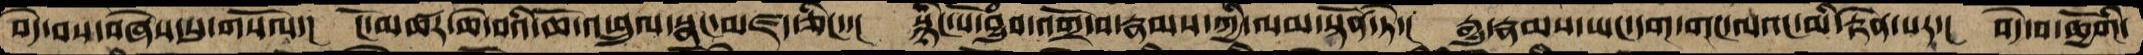བདེ་བས་བཞེས་སུ་གསོལ་།  ངོ་མཚར་ཆེ་བའི་ཆོ་འཕྲུལ་སྣང་མཛད་ཅིང་་།  སྙིང་པོ་བྱུཾབ་འགྲོ་བ་རྣམས་ཀྱི་ལམ་སྟོན་ཏེ་།  རྒྱུ་རྣམས་ཡང་དག་གང་ལའང་མི་རྟེན་པར་།  བདེ་བ་ཆྱོགི་
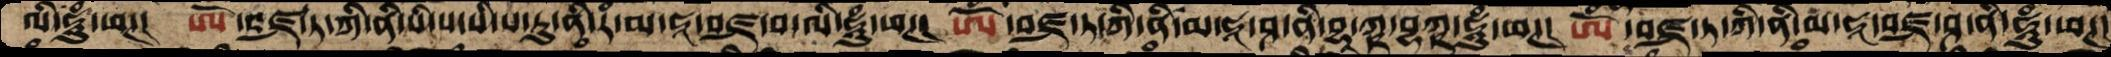ལི་ཧཱུཾ་ཕཊ།  ཨོཾ་བཛྲ་ཏ་ཀི་ནི་པི་པ་པི་པ་ཏུ་ནི་རཾ་མ་ཧཱ་བཛྲ་བ་ལི་ཧཱུཾ་ཕཊ།  ཨོཾ་བཛྲ་ཏ་ཀི་ནི་མ་ཧཱ་ཤ་ནི་བྷ་ཀྵ་བྷཀྵ་ཧཱུཾ་ཕཊ།   ཨོཾ་བཛྲ་ཏ་ཀི་ནི་མ་ཧཱ་བཛྲ་ཤ་ནི་ཧཱུཾ་ཕཊ།
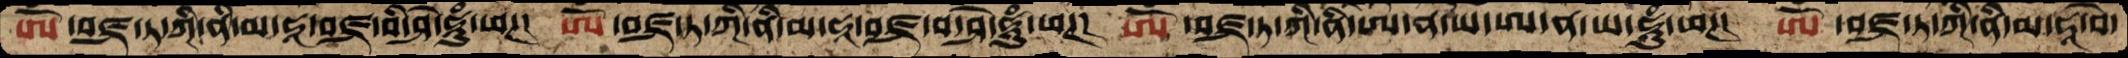ཨོཾ་བཛྲ་ཏ་ཀི་ནི་མ་ཧཱ་བཛྲ་བི་ཤེ་ཧཱུཾ་ཕཊ།  ཨོཾ་བཛྲ་ཏ་ཀི་ནི་མ་ཧཱ་བཛྲ་བ་ཤེ་ཧཱུཾ་ཕཊ།  ཨོཾ་བཛྲ་ཏ་ཀི་ནི་ཨ་ན་ཡ་ཨ་ན་ཡ་ཧཱུཾ་ཕཊ།  ཨོཾ་བཛྲ་ཏ་ཀི་ནི་མ་ཧཱ་བེ་
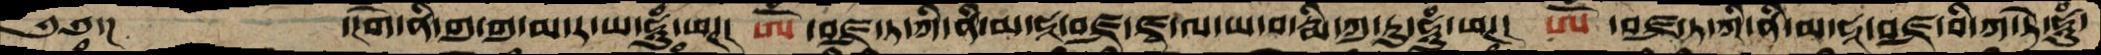༄༅་།          ་།གེ་ནི་གུ་གུ་མ་ར་ཡ་ཧཱུཾ་ཕཊ།    ཨོཾ་བཛྲ་ཏ་ཀི་ནི་མ་ཧཱ་བཛྲ་ཛྭ་ལ་ཡ་བ་རྨི་ཀུ་རུ་ཧཱུཾ་ཕཊ།  ཨོཾ ་བཛྲ་ཏཀི་ནི་མ་ཧཱ་བཛྲ་བི་ཀ་ཏེ་ཧཱུཾ་
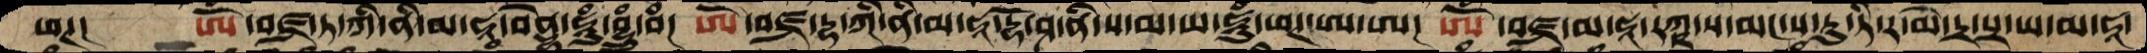ཕཊ།  ཨོཾ་བཛྲ་ཏ་ཀི་ནི་མ་ཧཱ་བནྡྷེ་ཧཱུཾ་བྷྲུཾ་བཾ།  ཨོ་བཛྲ་དྷ་ཀི་ནི་མ་ཧཱ་དྷོ་ཤ་ནི་ས་མ་ཡ་ཧཱུཾ་ཕཊ་ཨ་ཨ།  ཨོཾ་བཛྲ་མ་ཧཱ་རཀྵ་ས་མང་ས་རུ་ཏི་ར་མེ་དྲ་པྲ་ཡ་མ་ཧཱ་
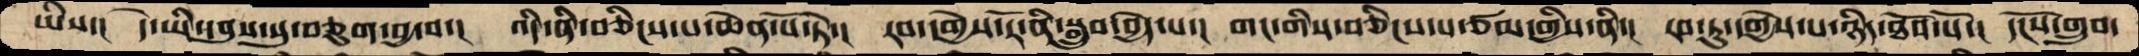ཡིས་།  དེ་ཡི་དབུས་སུ་བཅུག་བྱ་བ་།  འདི་ནི་བཅིངས་པ་ཆེན་པོ་ཏེ་།  རབ་དགྱེས་རོ་ནི་སྒྲུབ་བྱེད་པ་།  གང་གིས་བཅིངས་པ་ཙམ་གྱིས་ནི་།  རབ་ཏུ་དགྱེས་པ་ཉིད་ཐོབ་སོ་།  དངོས་གྲུབ་
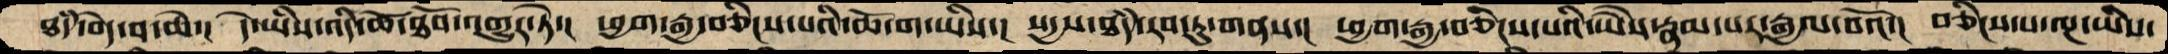ཐདཾ་བདེ་བ་ཆེ་།  དེ་ཡིས་འདི་ཆོ་ཐོབ་འགྱུར་ཏེ་།  ཕྱག་རྒྱ་བཅིངས་པའི་ཆོ་ག་ཡིས་།  སདྱས་ཐདཾ་རབ་ཏུ་གནས་།  ཕྱག་རྒྱ་བཅིངས་པའི་ཡཻས་རྣམ་པར་རྒྱལ་བའོ་།  བཅིངས་པ་ལྔ་ཡིས་
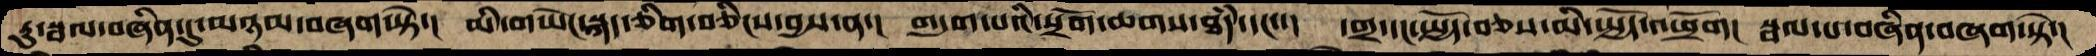རུ་སྦལ་བཞིན་དུ་མཉམ་བཞག་སྟེ་།  མི་གཡེང་སྐད་ཅིག་བཅིངས་བྱས་ན་།  གདུག་པའི་སྲོག་ཆགས་ཐཾད་དང་་།   དགྲ་དང་སྤྱོད་བཅས་མི་སྤྱོད་འཕྲོག།  སྦལ་པ་བཞིན་བཞག་སྟེ་།
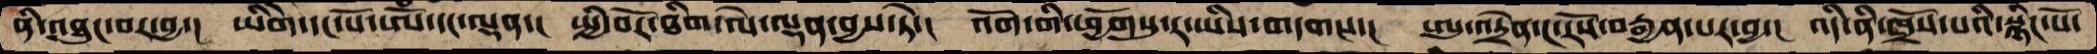ནི་འཐུང་བར་བྱ་།  ཡིགེ་དང་པོ་ཨོཾ་དང་ལྡན་།  སྤྱི་བོར་ཐིག་ལེ་ལྡན་བྱས་ཏེ་།  འོག་གི་ཕྱོགསུ་ར་ཡིས་གདགས་།  ཨུ་འདྲེན་ང་རོས་བརྒྱན་པར་བྱ་།  འདི་ནི་ཁྲོས་པའི་སྙིང་པོ་
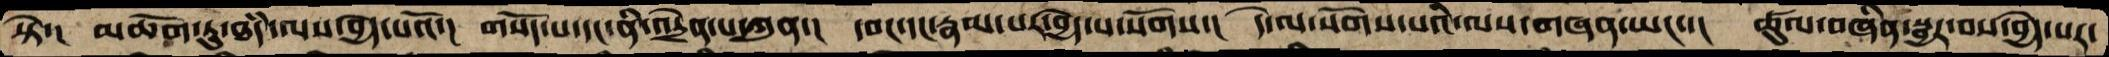སྟེ་།  མཆོག་ཏུ་ཐཾད་ལས་བྱེད་པའོ་།  གསོད་པ་དང་ནི་འདྲེན་པ་ཀུན་།  དབང་དང་རྣམ་པར་བྱེད་པ་སོགས་།  དེ་ལ་སོགས་པའི་ལས་གཞན་ཡང་་།  ཚུལ་བཞིན་སྦྱར་བས་བྱེད་པར་
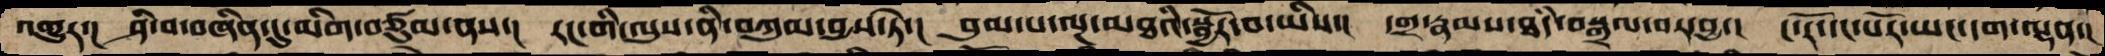འགྱུར་།  ཤི་བ་བཞིན་དུ་མིག་བཙུམ་ནས་། རང་གི་ལུས་ནི་བཀུམ་བྱས་ཏེ་།  བུམ་པ་ལྔ་མཐའི་སྦྱོར་བ་་ཡིས་།  དགྲ་རྣམས་ཐཾད་བསྒྲལ་བར་བྱ་།  ང་རོ་དང་པོར་ཡང་དག་ལྡན་།
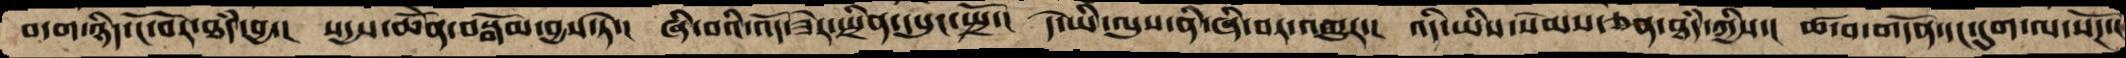བདག་ཉིད་ངོ་བོར་ཐཾད་བྱ་།  སདྱས་ཆེནོ་བསྒོམ་བྱས་ཏེ་།  ཞི་བའི་འོད་ཟེར་སྤྲིན་དཔུང་སྤྲོ་།  དེ་ཡི་ལུས་ནི་ཞི་བར་འགྱུར་།  འདི་ཡིས་སེམས་ཅན་ཐཾད་ཀྱིས་།  ཚ་བ་གདོན་དང་དུག་ལ་སོཌ་།
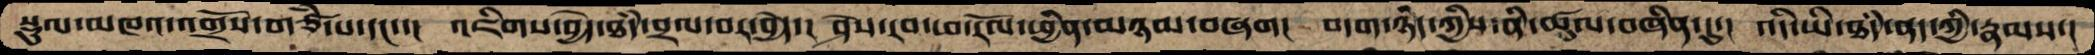སྡུལ་མཁའ་འགྲོས་གཙཾ་པ་དང་་།  འཇིགས་བྱེད་ཐཾད་བྲལ་བར་བྱེད་།  ཤེས་རབ་ཕ་རོལ་ཕྱིན་མཉམ་བཞག།  བདག་ཉིད་ཀྱིས་ནི་ཚུལ་བཞིན་དུ་།  འདི་ཡི་ཐཾད་ནད་ཀྱི་རྣམས་།
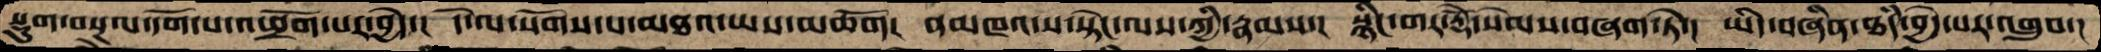སྡུག་བསྔལ་དོག་པ་འཕྲོག་པར་བྱེད་།  དེ་ལ་སོགས་པ་མཐའ་ཡས་མཆོག།  ནམཁའ་ས་སྟེང་ལས་ཀྱི་རྣམས་།  སྙིང་གར་རྡོེ་སེམས་བཞག་ཏེ་།  ཡིད་བཞིན་ཐཾད་བྱེད་པར་འགྲུབ་།
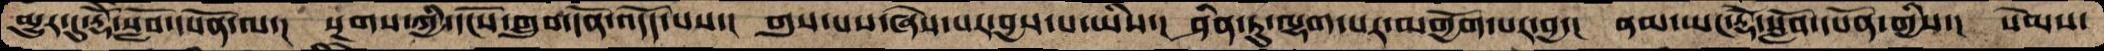མྱུར་དུ་རྡོེ་སློབ་དཔོན་ལ་།  སྔགས་ཀྱི་དངོས་གྲུབ་དོན་འདོད་པས་།  གུས་པས་ཞེས་པར་བྱས་པ་ཡིས་།  ཤིན་ཏུ་ལྷག་པར་མགྱོག་པར་བྱ་།  ནམ་ཡང་རྡོེ་སློབ་དཔོན་གྱིས་།  སེམས་
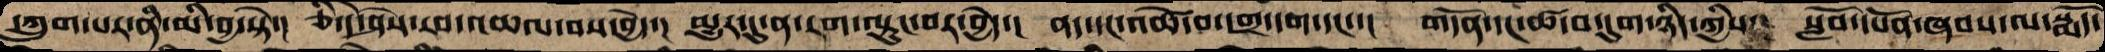དཀྲུག་པར་མི་བྱ་སྟེ་།   ཅི་དེ་ཤེས་རབ་འཆལ་བས་བྱེད་།  མྱུར་དུ་ན་རག་ལྟུང་བར་བྱེད་།  ནད་དང་འཚེ་བ་དགྲ་དག་དང་་།  གདོན་དང་ཚ་བ་དུག་ཉིད་ཀྱིས་།  སློབ་དཔོན་ཞབས་ལ་སྨོད་
